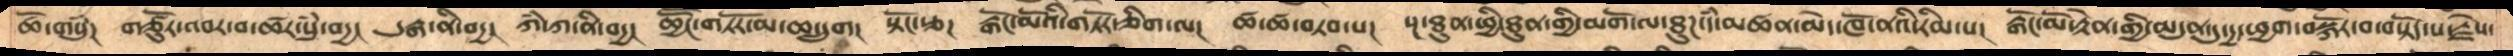ཆོ་གསུཾ།    གཙོུར་འབར་བ་ཚར་སུཾ་བདྱ།  དུརྒ་ནི་བདྱ།  ཀཾ་ཀ་ནི་བདྱ།  ཆྱཽང་གཏོར་མ་ཆ་དྲུག།   སྟོང་རྩ།  རྒོང་མོའི་གཏོར་ཅིག་ལ།  ཚ་ཚ་བཏབ་པ།  སྔ་ཐུན་ཕྱི་ཐུན་གྱི་མགོ་ལ་ཐུཌ་དཾ་མཚན་མེད་ཁོ་ནའི་རིམ་པ།   རྒོང་མོ་རྟེན་གྱི་མདུན་དུ་དྱ་ཕྱག་བསྐོར་བ་བསྟོད་པ་རྗེས་
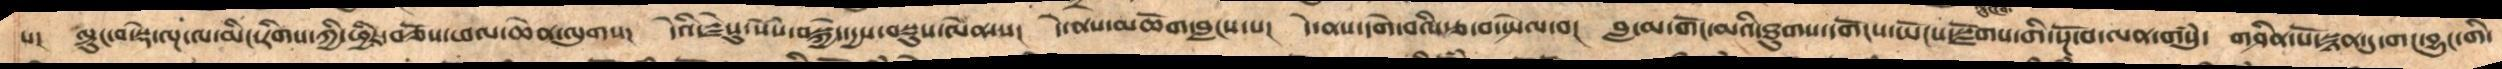པ།   ལྟུང་བ་སྡེ་ལྔ་ལ་མིང་རིགས་ཀྱི་ཕྱིར་བཅོས་ཕལ་ཆེན་ལུགས།   དེའི་རྗེསུ་སེཾས་བསྐྱེད་དྱས་བསྡུས་ལེན་ས།  དེ་ནས་མཆོག་བླངས་པ།  དེ་ནས་དགེ་བའི་རྩ་བ་སྤེལ་བ།  བླ་མ་གོང་མའི་ཐུགས་དགོངས་ཡོངས་སྫོགས་གི་སྔོ་བ་ལན་གསུཾ་  གཤིན་པོ་སྙན་དུ་གང་བྱུང་གི་
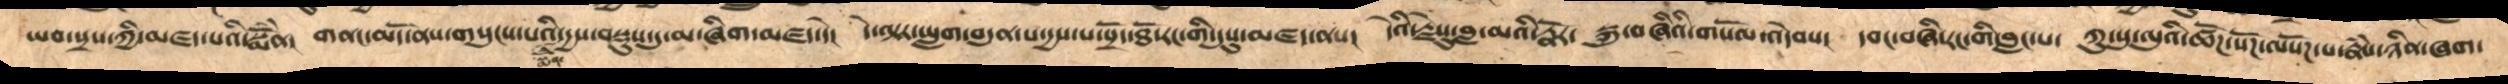ཡབ་སྲས་ཀྱི་མཛད་པའི་སྨོཾན།   གནང་མོད་ནས་གསུངས་པའི་དྱས་བསྡུས་དུ་མ་ཞིག་མཛད་དེ།   དེ་ལྟར་ཡླག་བདུན་པ་དྱས་པ་སྲོད་ཐོ་རང་གི་དུསུ་མཛད་ནས།   དེའི་རྗེསུ་བླ་མའི་རྣོར་   སྐུ་བཞིའི་གསོལ་འདེབས།   དབང་བཞི་རང་གི་བླང་པ་  ཀུ་སུ་ལུའི་ཚོཌ་སོཌ་ལསོཌ་པ་རྣཾས་ཉིན་ཞག་
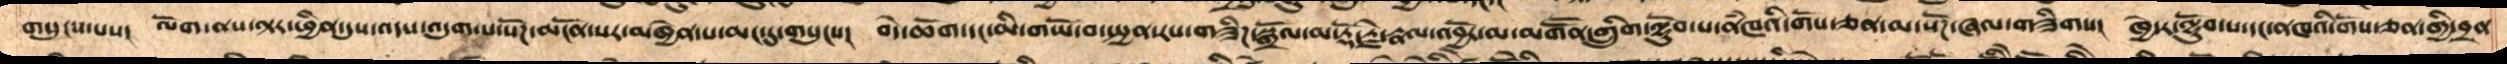གསུངས་པས།   ལོག་ནས་ལྟར་ཕྱིན་དུས་འདས་འདུག་པ་སོཌ་མངོན་པར་མཁྱེན་པ་མང་དུ་གསུངས།   བདེ་ཆོག་དང་མི་གཡོ་བ་སྤྱན་རས་གཟིཌ་སྒྲོལ་མ་རྡོ་རྗེ་རྣལ་འབྱོར་མ་མགཽན་གྲུགི་ལྷོུབ་པ་ནཾཁའི་གོས་ཅན་མ་སོཌ་ཞལ་གཟིགས།  ཁྱེདར་ལྷོུབ་པ་དང་ནཁའི་གོས་གྱི་བྲན
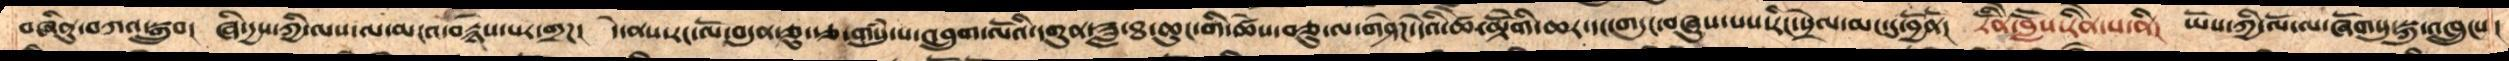བཞིནུ་བཀའ་སྒྲུབ།   ཞི་དྱས་ཀྱི་ལས་ལ་མངའ་བརྙེས་པར་གྲཌ།    དེ་ནས་རང་ལོ་བདུན་ཅུ་རྩ་གསུཾ་པ་འབྲུག་ལོའི་དགུན་ཟླ་ཐ་ཆུང་གི་ཚེས་བཅུ་ལ་གཤེཌ་དེའི་ཚེ་མྟེགོི་ཆར་དང་གདུང་བཞུས་པས་རིང་སྲེལ་མང་དུ་བྱོནོ།  རིནོེ་བླཽས་རིནེ་པ་ནི།  ཡོས་ཀྱི་ལོ་ལ་ཞོགསུ་སྐུ་འཁྲུངས།
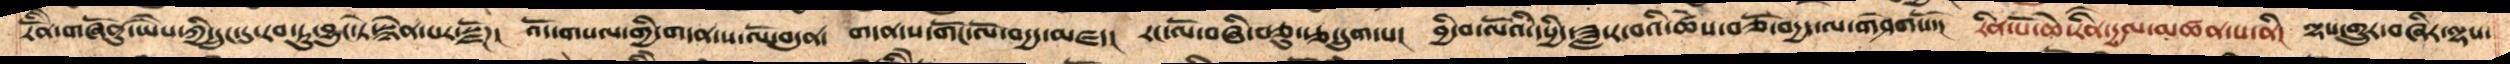རིནོེ་གཞོནུ་ཡཻས་ཀྱི་དྲུང་དུ་རབ་ཏུ་སྙེན་པར་སྫོཌ།  འོད་གསལ་གྱི་གདན་ས་ལོ་བདུན་  གདན་ས་གོང་ལོ་བདྱད་མཛད།  རང་ལོ་བཞི་བཅུ་རྩ་དྲུག་པ།  བྱི་བ་ལོའི་དཔྱིད་ཟླ་ར་བའི་ཚེས་བཅོ་བདྱད་ལ་གཤེགསོ།  རིན་པོ་ཆེ་རིནེ་དྱལ་མཚན་པ་ནི།  ལྷས་གྲུར་བཞིར་ལྷས་
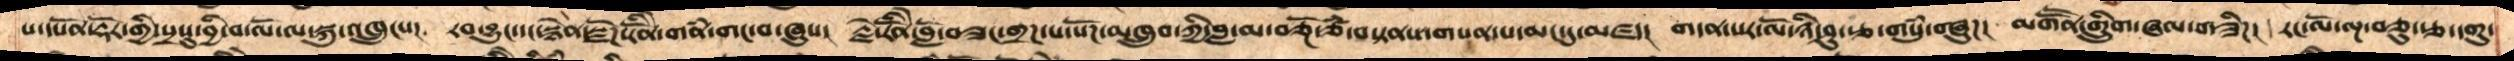པ་དཔོན་རྡོར་གྱི་སྲསུ་བྱི་བ་ལོ་ལ་སྐུ་འཁྲུངས།   རབ་བྱུང་དང་སྙེན་སྫོཌ་རིནོི་གནཾ་གང་བ་ཞུས།   རྗེ་རིནོི་བློ་བཟང་གྲཌ་པ་སོཌ་མཁྲུབ་ཀྱི་བླ་མ་བཅྔོ་ཙཾ་བསྟནས་གསན་པ་མང་དུ་མཛད།  གདན་སར་ལོ་ཉི་ཤུ་རྩ་གསུཾ་གཞུཌ།  མགཽན་གྲིུག་ཞལ་གཟིཌ།  རང་ལོ་ལྔ་བཅུ་རྩ་དགུ་
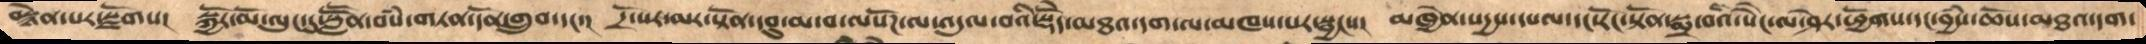བསྙེན་པར་སྫོགས།    སྐྱོར་མོ་ལུང་དུ་སླཽན་བསཾ་གཏན་དོན་གྲུབ་དང་།  དྲོ་སར་མར་སྟོན་དབུ་མ་བ་ལསོཌ་ལ་འདུལ་བའི་སྡེོད་མཐའ་དག་ལ་མཁས་པར་སྦྱངས།    མཁྱེན་སདྱས་དཔལ་དང་རོང་སྟོན་སྨྲ་བའི་སཻང་ལ་ཤེར་ཕྱོགས་བྱཾས་ཆོས་མཐའ་དག་
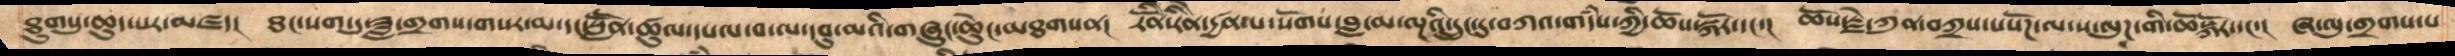ཐུགསུ་ཆུད་པར་མཛད།   ཐང་སག་དུ་ཟླ་གྲགས་གསར་མ་དང་སླཽན་ཚུལ་དཔལ་བ་ལ་དབུ་མའི་གཞུང་ཆེུང་མཐགསན།   རིནོེ་རིནེ་དྱཚན་པ་སོགས་བླ་མ་ལྔའི་དྲུང་དུ་བཀའ་གདཾས་ཀྱི་ཆོས་སྐོར་དང་།   ཆོས་རྗེ་ཀུན་བཀྲས་པསོཌ་ལ་ས་ལུཌ་གི་ཆོསྐོར་དང་།   ཞ་ལུ་གྲགས་པ
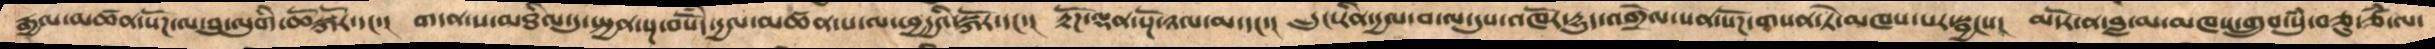རྒྱལ་མཚན་སོཌ་ལ་བུ་ལུགི་ཆོསྐོར་དང་།   གདན་ས་མཐིལ་དུ་སྤྱན་སྔ་བསོཾད་དྱལ་མཚན་པ་ལ་ཕྱདྱའི་སྐོར་དང་།   རྟོཌ་ལྡན་སྔོ་ཉལ་མ་དང་།   དྲུང་རིན་དྱལ་བ་ལ་དུས་འཁོར་དྱུད་འགྲེལ་པན་སོཌ་གསན་ཏེ་མཁས་པར་སྦྱངས།  མདོར་ན་བླ་མ་མཁས་གྲུབ་སུཾ་བཅུ་ཙཾ་ལ་
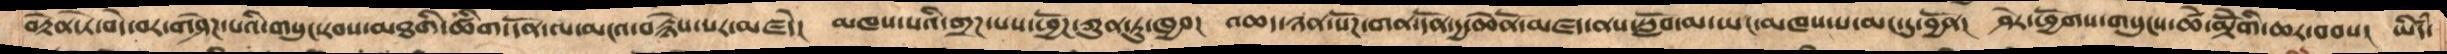བརྟེན་ཏེ་བདེ་བར་གཤེཌ་པའི་གསུང་རབས་མཐགི་ཚིག་དོན་ལ་མངའ་བརྙེས་པར་མཛདེ། མཁས་པའི་གྲཌ་པས་ཕྱོགས་ཀུན་ཏུ་ཁྱབ། འཆད་ཉན་སོཌ་གན་དོན་དྱ་ཆེནོ་མཛད་ནས་སློབ་མ་ཡང་མཁས་པ་མང་དུ་བྱོན། ཤེར་ཕྱོགས་གསུངས་ཚེ་མྟོེགི་ཆར་བབས། ཡིདྃ་
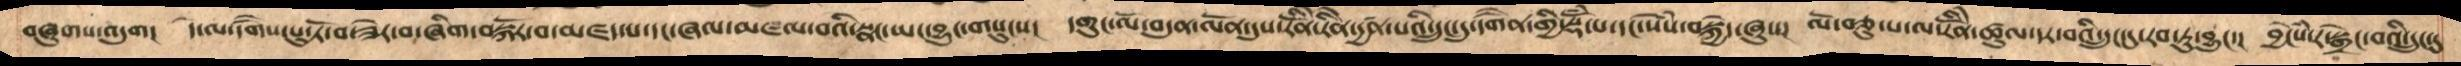བཞུགས་འདུག།  དེ་ལ་དགཻས་པུ་ཏོ་བ་ཡིན་ཟེར་བ་ཞིག་བསྐོར་བ་མཛད་པ་དང་ཞལ་མཇལ་བའི་སྣང་ཡང་བྱུང་གསུངས།  དགུང་ལོ་བདུན་ལོན་དུས་རིནོེ་རིེན་དྱཚན་པའི་དྲུང་དུ་དགཻན་གྱི་སྡོཾ་པ་དང་སེཾས་བསྐྱེད་ཞུས།  ལོ་བཅུ་པ་ལ་རིནོེ་ཚུལ་དར་བའི་དྲུང་དུ་རབ་ཏུ་བྱུང་།  བྱངེཾས་ར་སྒྲེང་བའི་དྲུང་དུ
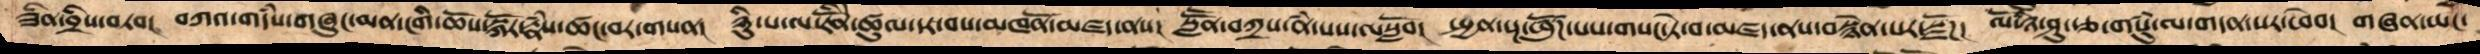ཟིན་བྲིས་བཏབ།   བཀའ་གདཾས་གཞུང་མན་ངགི་ཆོས་སྐོར་རྣཾས་ཚང་བར་གསན།   ཉིུ་པ་ལ་རིནོི་ཚུལ་དར་བས་མཁནོ་མཛད་ནས།   སླཽན་བཀྲས་ནཾ་པས་ལསློབ།  སྤྱན་སྔ་ཕུཚོཌ་པས་གསང་ཏེ་བ་མཛད་ནས་བསྙེན་པར་སྫོཌ།   ལོ་ཉི་ཤུ་རྩ་གསུཾ་ལ་གདན་སར་ཕེབ།  གཞན་ཡང་
